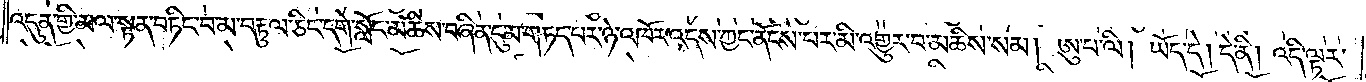འདུན་གྱི་མལ་སྟན་བཏིང་བ་མ་བརྟུལ་ཅིང་དགེ་སློང་མཆིས་བཞིན་དུ་མ་གཏད་པར་ཉེ་འཁོར་འདས་ཀྱང་ནོངས་པར་མི་འགྱུར་བ་མཆིས་སམ། ཨུ་པ་ལི། ཡོད་དེ། དེ་ནི། འདི་ལྟར་
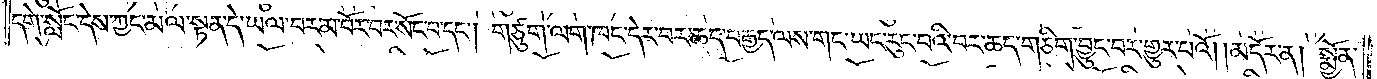དགེ་སློང་དེས་ཀྱང་མལ་སྟན་དེ་ཡལ་བར་མ་བོར་བར་སོང་བ་དང༌། གཙུག་ལག་ཁང་དེར་བར་ཆད་བརྒྱད་ལས་གང་ཡང་རུང་བའི་བར་ཆད་གཅིག་བྱུང་བར་གྱུར་པའོ། །མདོར་ན། སྨྱོན་
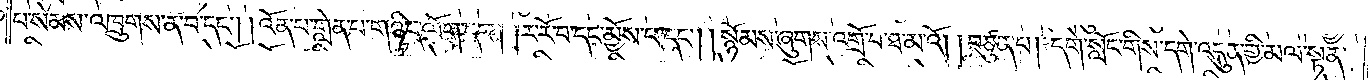པ་སེམས་འཁྲུགས་ན་བ་དང༌། །འོན་པ་གླེན་པ་གཉིད་ལོག་དང༌། །ར་རོ་བ་དང་མྱོས་པ་དང༌། །སྙོམས་ཞུགས་འགྲོ་བ་ཐ་མའོ། །བཙུན་པ། དགེ་སློང་གིས་དགེ་འདུན་གྱི་མལ་སྟན་
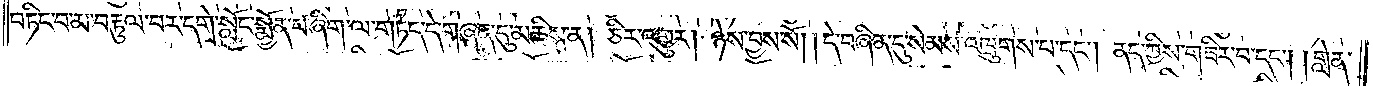བཏིང་བ་མ་བརྟུལ་བར་དགེ་སློང་སྨྱོན་པ་ཞིག་ལ་གཏད་དེ་གཞན་དུ་མཆིས་ན། ཅིར་འགྱུར། ཉེས་བྱས་སོ། །དེ་བཞིན་དུ་སེམས་འཁྲུགས་པ་དང༌། ནད་ཀྱིས་གཟིར་བ་དང༌། །གླེན་
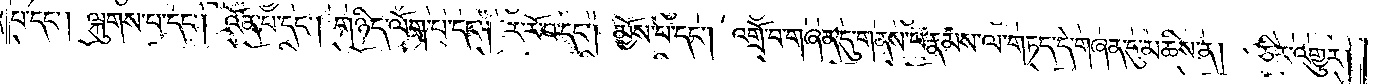པ་དང༌། ལྐུགས་པ་དང༌། འོན་པ་དང༌། གཉིད་ལོག་པ་དང༌། ར་རོ་བ་དང༌། མྱོས་པ་དང༌། འགྲོ་བ་གཞན་དུ་གནས་པ་རྣམས་ལ་གཏད་དེ་གཞན་དུ་མཆིས་ན། ཅིར་འགྱུར།
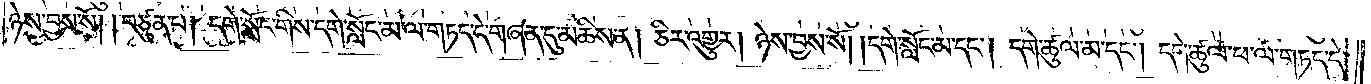ཉེས་བྱས་སོ། །བཙུན་པ། དགེ་སློང་གིས་དགེ་སློང་མ་ལ་གཏད་དེ་གཞན་དུ་མཆིས་ན། ཅིར་འགྱུར། ཉེས་བྱས་སོ། །དགེ་སློང་མ་དང༌། དགེ་ཚུལ་མ་དང༌། དགེ་ཚུལ་ཕ་ལ་གཏད་དེ་
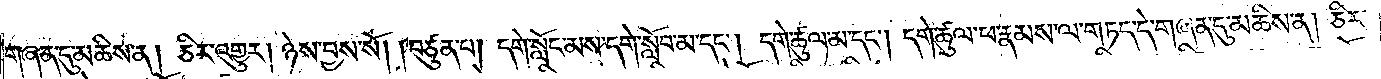གཞན་དུ་མཆིས་ན། ཅིར་འགྱུར། ཉེས་བྱས་སོ། །བཙུན་པ། དགེ་སློང་མས་དགེ་སློབ་མ་དང༌། དགེ་ཚུལ་མ་དང༌། དགེ་ཚུལ་ཕ་རྣམས་ལ་གཏད་དེ་གཞན་དུ་མཆིས་ན། ཅིར་
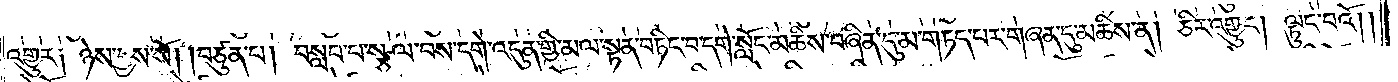འགྱུར༑ ཉེས་བྱས་སོ། །བཙུན་པ། བསླབ་པ་སྩལ་བས་དགེ་འདུན་གྱི་མལ་སྟན་བཏིང་བ་དགེ་སློང་མཆིས་བཞིན་དུ་མ་གཏད་པར་གཞན་དུ་མཆིས་ན། ཅིར་འགྱུར། ལྟུང་བའོ། །
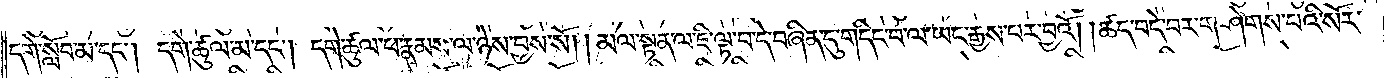དགེ་སློབ་མ་དང༌། དགེ་ཚུལ་མ་དང༌། དགེ་ཚུལ་ཕ་རྣམས་ལ་ཉེས་བྱས་སོ། །མལ་སྟན་ལ་ཇི་ལྟ་བ་དེ་བཞིན་དུ་གདིང་བ་ལ་ཡང་རྒྱས་པར་བྱའོ། །ཚད་བདེ་བར་གཤེགས་པའི་སོར་
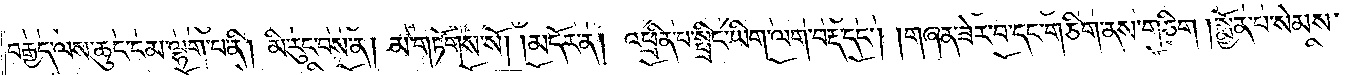བརྒྱད་ལས་ཆུང་ངམ་ལྷག་པ་ནི། མི་རུང་བས་ན། མ་གཏོགས་སོ།    །མདོར་ན། འཕྲིན་པ་སྤྲིང་ཡིག་ལག་བརྡ་དང༌། །གཞན་ཟེར་བ་དང་གཅིག་ནས་གཅིག །སྨྱོན་པ་སེམས་
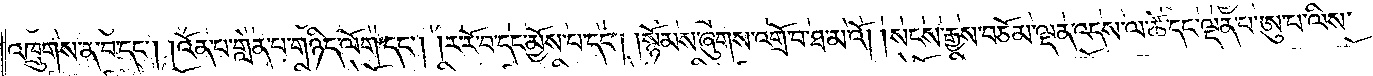འཁྲུགས་ན་བ་དང༌། །འོན་པ་གླེན་པ་གཉིད་ལོག་དང༌། །ར་རོ་བ་དང་མྱོས་པ་དང༌། །སྙོམས་ཞུགས་འགྲོ་བ་ཐ་མའོ། །སངས་རྒྱས་བཅོམ་ལྡན་འདས་ལ་ཚེ་དང་ལྡན་པ་ཨུ་པ་ལིས་
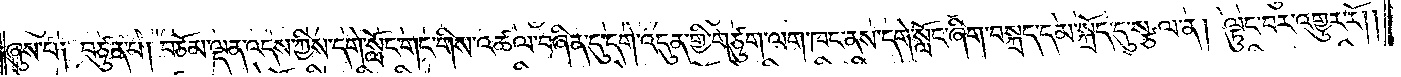ཞུས་པ༑ བཙུན་པ། བཅོམ་ལྡན་འདས་ཀྱིས་དགེ་སློང་གང་གིས་འཚལ་བཞིན་དུ་དགེ་འདུན་གྱི་གཙུག་ལག་ཁང་ནས་དགེ་སློང་ཞིག་བསྐྲད་དམ་སྐྲོད་དུ་སྩལ་ན། ལྟུང་བར་འགྱུར་རོ། །
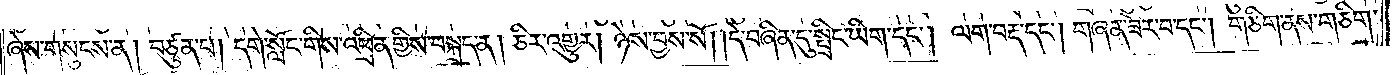ཞེས་གསུངས་ན། བཙུན་པ། དགེ་སློང་གིས་འཕྲིན་གྱིས་བསྐྲད་ན། ཅིར་འགྱུར། ཉེས་བྱས་སོ། །དེ་བཞིན་དུ་སྤྲིང་ཡིག་དང༌། ལག་བརྡ་དང༌། གཞན་ཟེར་བ་དང༌། གཅིག་ནས་གཅིག་
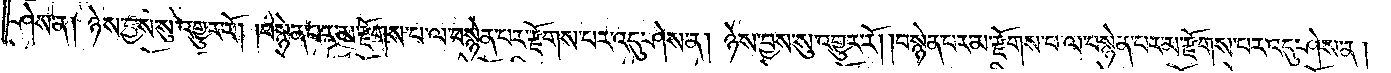ཤེས་ན། ཉེས་བྱས་སུ་འགྱུར་རོ། །བསྙེན་པར་མ་རྫོགས་པ་ལ་བསྙེན་པར་རྫོགས་པར་འདུ་ཤེས་ན། ཉེས་བྱས་སུ་འགྱུར་རོ། །བསྙེན་པར་མ་རྫོགས་པ་ལ་བསྙེན་པར་མ་རྫོགས་པར་འདུ་ཤེས་ན།
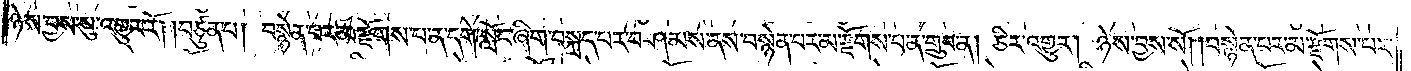ཉེས་བྱས་སུ་འགྱུར་རོ། །བཙུན་པ། བསྙེན་པར་མ་རྫོགས་པ་ན་དགེ་སློང་ཞིག་བསྐྲད་པར་བཤམས་ནས་བསྙེན་པར་མ་རྫོགས་པ་ན་གྲུབ་ན། ཅིར་འགྱུར། ཉེས་བྱས་སོ། །བསྙེན་པར་མ་རྫོགས་པར་
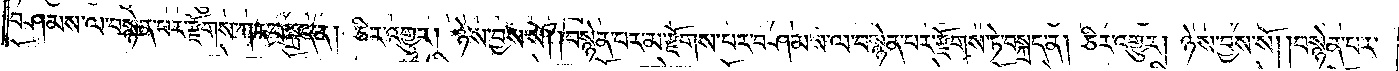བཤམས་ལ་བསྙེན་པར་རྫོགས་ཀར་བསྐྲད་ན། ཅིར་འགྱུར། ཉེས་བྱས་སོ། །བསྙེན་པར་མ་རྫོགས་པར་བཤམས་ལ་བསྙེན་པར་རྫོགས་ཏེ་བསྐྲད་ན། ཅིར་འགྱུར། ཉེས་བྱས་སོ། །བསྙེན་པར་
